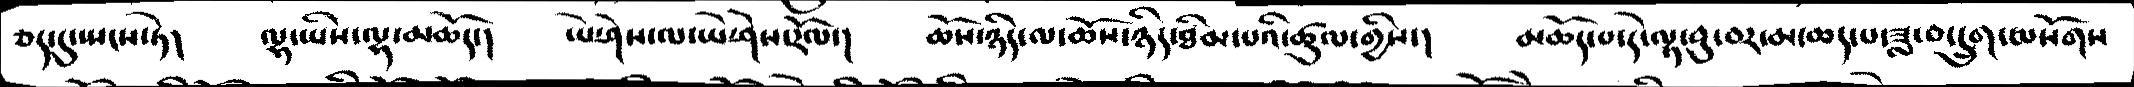ཅད་དུ་སྤངས་ཏེ།   ལྷ་ཡིས་ལྷ་མཆོད་།  ཡེ་ཤེས་ལ་ཡེ་ཤེས་རོལ་།  ཆོས་ཉིད་ལ་ཆོས་ཉིད་ཐིམ་པའི་ཚུལ་གྱིས་།  མཆོད་པ་དེ་ལྟ་བུ་བར་མ་ཆད་པ་ཟླ་བ་དྲུག་ལསོགས
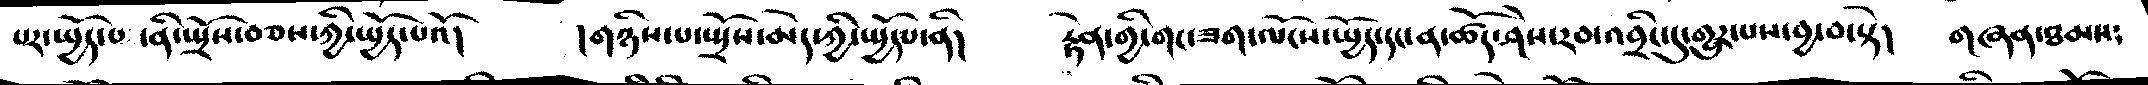པར་སྤྱོད་པ་ནི་སྤྲོས་བཅས་ཀྱི་སྤྱོད་པའོ།   །གཉིས་པ་སྤྲོས་མེད་ཀྱི་སྤྱོདཔ་ནི།   རྟེན་གྱི་གང་ཟག་ལོངས་སྤྱོད་དང་ན་ཚོད་ཤེས་རབ་འབྲིང་དུ་གྱུར་པས་བྱ་བ་སྟེ།  གཞན་ཐམས༴
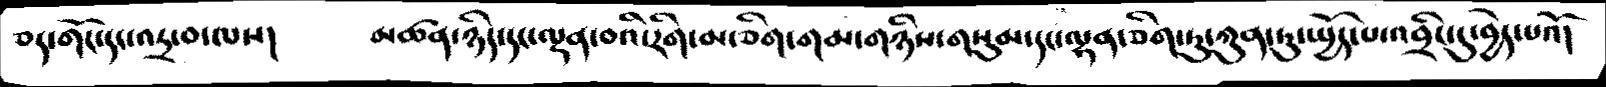ཅད་གོང་དང་འདྲ་བ་ལས།   མཚན་ཉིད་དང་ལྡན་བའི་རིག་མ་ཅིག་གམ་གཉིས་གསུམ་དང་ལྷན་ཅིག་ཏུ་ཀུན་ཏུ་སྤྱོད་པ་འབྲིང་དུ་བྱེད་པའོ།
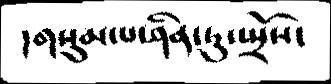།གསུམ་པ་ཤིན་ཏུ་སྤྲོས་
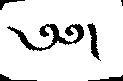༄༅།
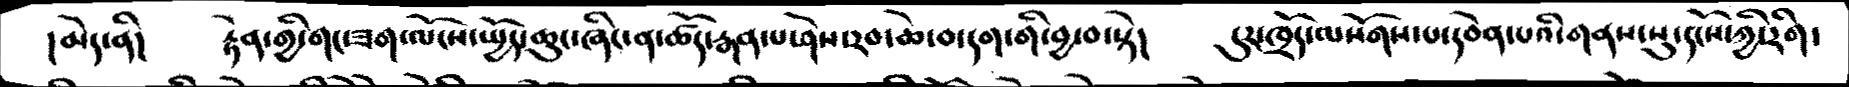།མེད་ནི།   རྟེན་གྱི་གང་ཟག་ལོངས་སྤྱོད་ཆུང་ཞིང་ན་ཚོད་རྒན་པ་ཤེས་རབ་ཆེ་བ་དག་གི་བྱ་བ་སྟེ།   དུར་ཁྲོད་ལསོགས་པ་དབེན་པའི་གནས་སུ་དངོས་ཀྱི་རིག་
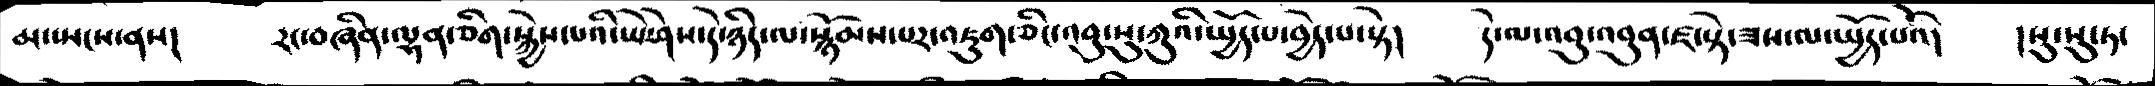མ་སྤངས་ནས།   རང་བཞིན་ལྷན་ཅིག་སྐྱེས་པའི་ཡེ་ཤེས་དེ་ཉིད་ལ་སྙོམས་པར་འཇུག་ཅིང་འབུ་སུ་ཀུའི་སྤྱོད་པ་བྱེད་པ་སྟེ།   དེ་ལ་འབུ་འབུན་ཛ་སྟེ་ཟས་ལ་སྤྱོད་པའོ།   །སུ་སུ་ཏ་
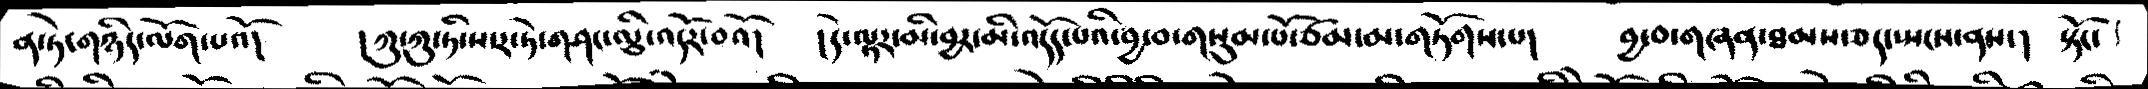ན་ཏེ་གཉིད་ལོག་པའོ།   །ཀུ་ཀུ་ཏི་ས་ར་ཏེ་གཤང་ལྕི་འདོར་བའོ།   །དེ་ལྟར་མི་བྱར་མི་འདོད་པའི་བྱ་བ་གསུམ་པོ་ཙམ་མ་གཏོགས་པ།  བྱ་བ་གཞན་ཐམས་ཅད་སྤངས་ནས་།   སྟོང་
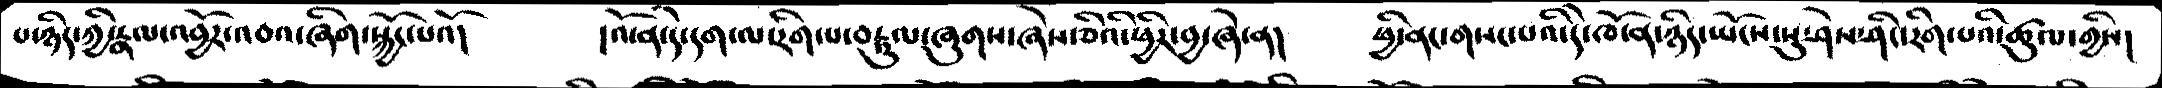པ་ཉིད་ཀྱི་རྣལ་འབྱོར་འབའ་ཞིག་སྐྱོང་པའོ།   །འོ་ན་དེ་དག་ལ་རིག་པ་བརྟུལ་ཞུགས་ཞེས་ཅིའི་ཕྱིར་བྱ་ཞེ་ན།   ཕྱི་ནང་གསང་པའི་དེ་ཁོ་ན་ཉིད་ཡོངས་སུ་ཤེས་ཤིང་རིག་པའི་ཚུལ་གྱིས།
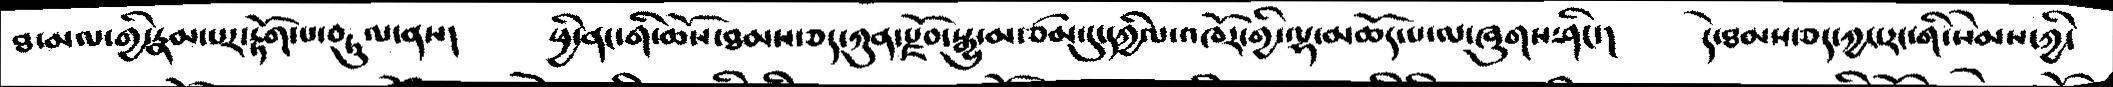ཐ་མལ་གྱི་རྣམ་པར་རྟོག་པ་བརྟུལ་ནས།  ཕྱི་ནང་གི་ཆོས་ཐམས་ཅད་ཀུན་རྫོབ་སྒྱུ་མ་ཙམ་དུ་དཀྱིལ་འཁོར་གྱི་ལྷ་མཆོད་པ་ལ་ཞུགས་ཤིང་།   དེ་ཐམས་ཅད་ཀྱང་རང་གི་སེམས་ཀྱི་
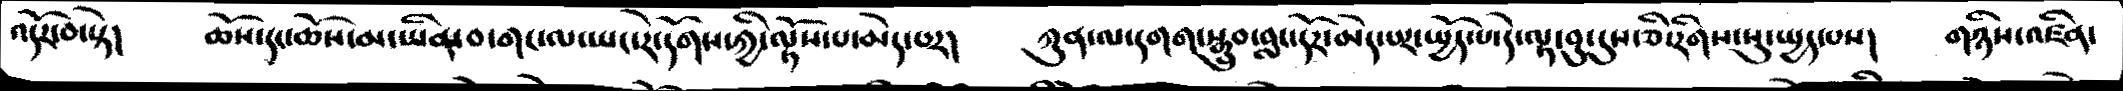འདོར་བ་སྟེ།   ཆོས་དང་ཆོས་མ་ཡིན་བ་གང་ལ་ཡང་རེ་དོགས་ཀྱི་ལྟོས་པ་མེད་པར།   ཀུན་ལ་དགག་སྒྲུབ་བླང་དོར་མེད་པར་སྤྱོད་པ་དེ་ལྟ་བུ་དུས་ཅི་རིགས་སུ་སྤྱད་པས།   གཉིས་འཛིན་
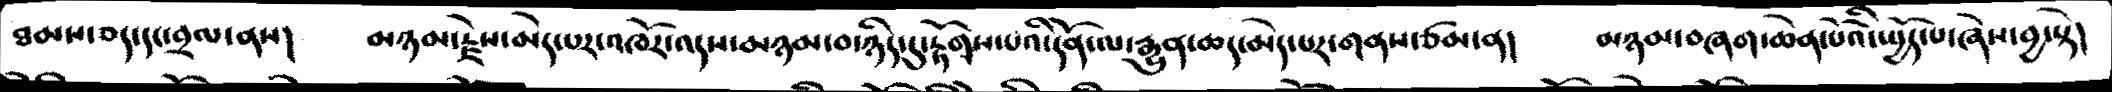ཐམས་ཅད་དང་བྲལ་ནས།   མཉམ་རྗེས་མེད་པར་འཁོར་འདས་མཉམ་བ་ཉིད་དུ་རྟོགས་པའི་དོན་ལ་རྒྱུན་ཆད་མེད་པར་གནས་ཙམ་ན།   མཉམ་བཞག་ཆེན་པོའི་སྤྱོད་པ་ཞེས་བྱ་སྟེ།
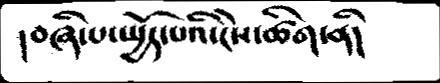།བཞི་པ་སྤྱོད་པའི་ངེས་ཚིག་ནི།
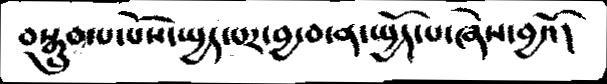བསྒྲུབ་པ་པོས་སྤྱད་པར་བྱ་བ་ན་སྤྱོད་པ་ཞེས་བྱའོ།
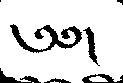༄༅།
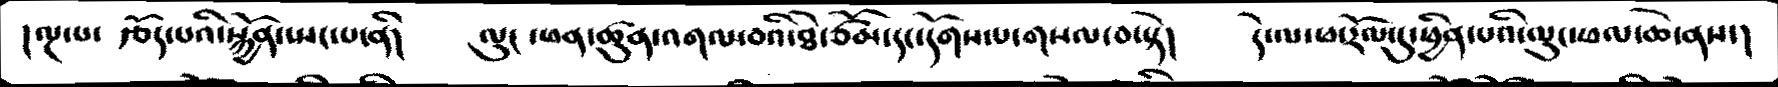།ལྔ་པ་ རྩོད་པའི་སྐྱོན་སྤང་པ་ནི།  ལུང་ཕན་ཚུན་འགལ་བའི་ཐེ་ཙོམ་དང་དོགས་པ་གསལ་བ་སྟེ།   དེ་ལ་ཕ་རོལ་དུ་ཕྱིན་པའི་ལུང་ཕལ་ཆེ་ནས་།
